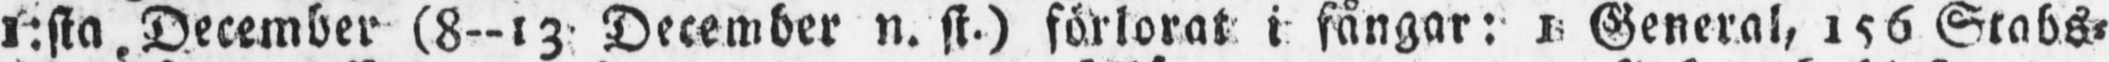1:sta December (8-13 December n. st.) förlorat i fångar: 1 General, 156 Stabs-
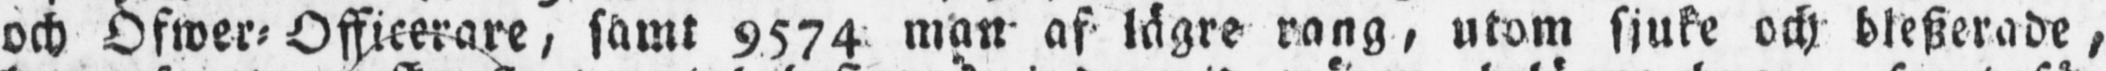och Öfwer-Officerare, samt 9574 man af lägre rang, utom sjuke och bleszerade,
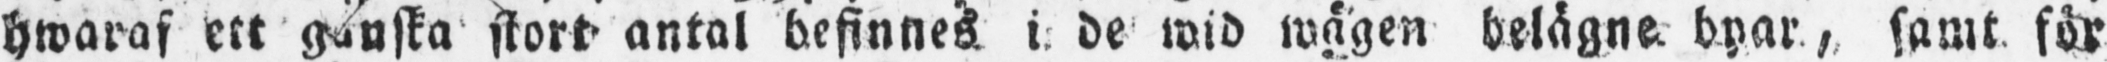hwaraf ett ganska stort antal befinnes i de wid wägen belägne byar, samt för
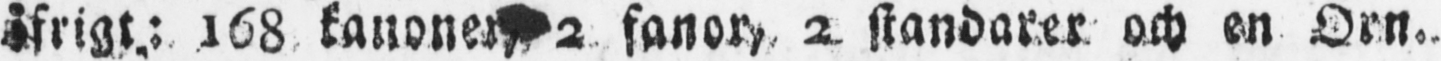öfrigt: 168 kanoner, 2 fanor, 2 standarer och en Örn.
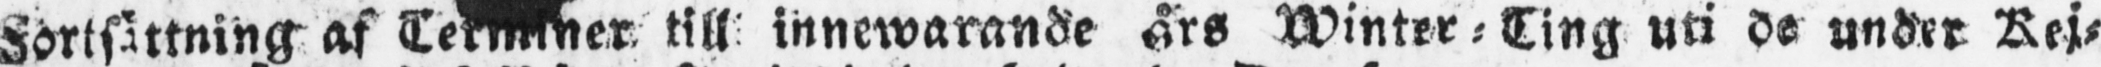Fortsättning af Terminer till innewarande års Winter-Ting uti de under Kej-
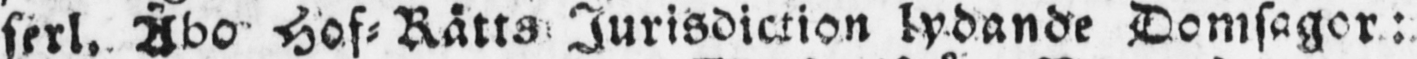serl. Åbo Hof- Rätts Jurisdiction lydande Domsagor:
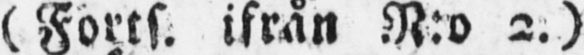(Forts. ifrån N:o 2.)
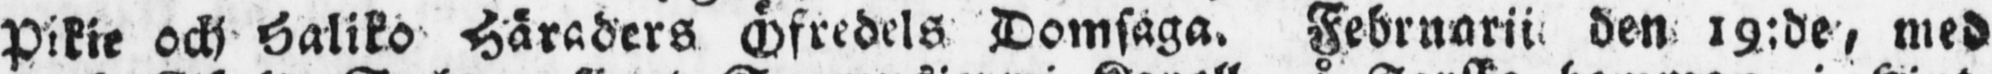Pikie och Haliko Häraders Öfredels Domsaga. Februarii den 19:de, med
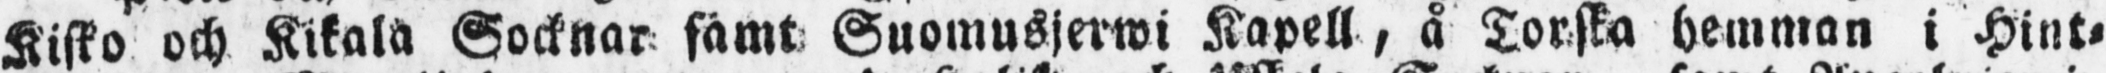Kisko och Kikala Socknar samt Suomusjerwi Kapell, å Torska hemman i Hint-
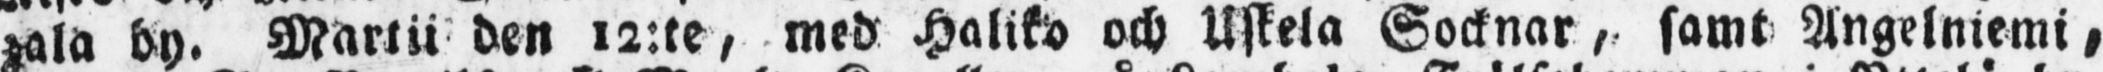zala by. Martii den 12:te, med Haliko och Uskela Socknar, samt Angelniemi,
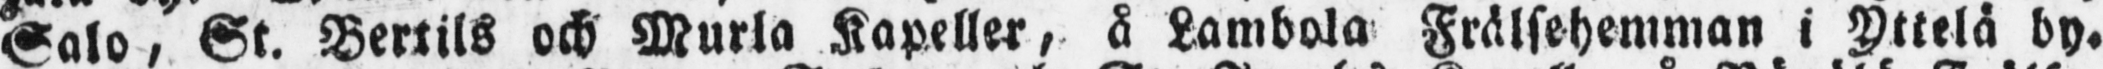Salo, St. Bertils och Murla Kapeller, å Lambola Frälsehemman i Yttelä by.
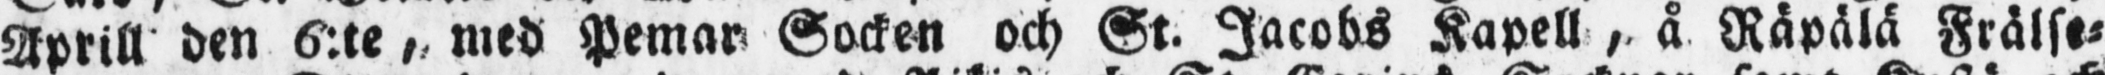Aprill den 6:te, med Pemar Socken och St. Jacobs Kapell , å Räpälä Frälse-
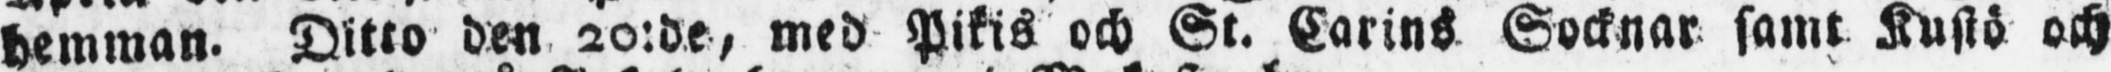hemman. Ditto den 20:de, med Pikis och St. Carins Socknar samt Kustö och
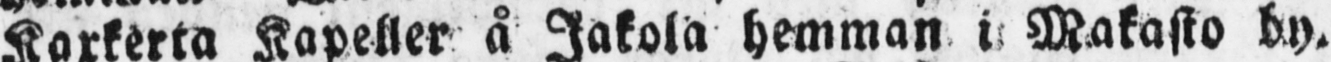Kaxkerta Kapeller å Jakola hemman i Makasto by.
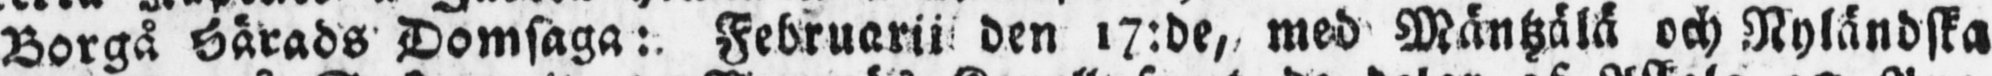Borgå Härads Domsaga: Februarii den 17:de, med Mäntzälä och Nyländska
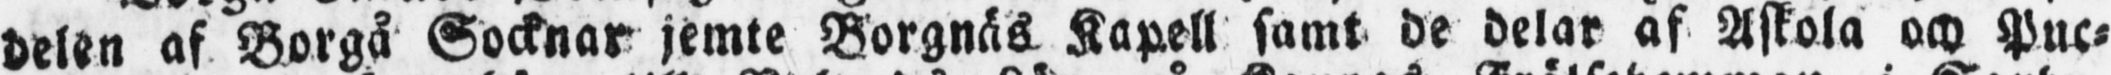delen af Borgå Socknar jemte Borgnäs Kapell samt de delar af Askola och Puc-
